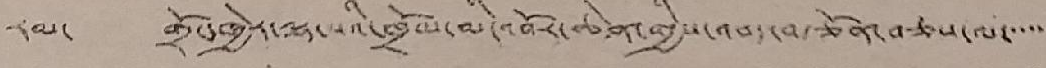རམ་ གྲོང་ཁྱེར་ལྷ་སའི་ཁྲོམ་མི་འབོར་ཆེན་གྱིས་འབད་བརྩོན་བཅས་ལ་་་་་་
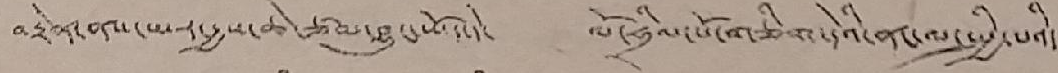བརྟེན་ནས་ཡར་རྒྱས་ཆེ་ཙམ་བྱུང་ཡོད་དེ་ ལོ་ཧྲིལ་པོ་གཅིག་དེའི་ནང་ལ་སྤྱི་པའི་
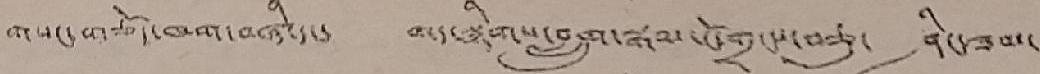གསང་བཅོད་ཁག་བཞི་དང་ གད་སྙིགས་བླུག་སྒམ་ངོ་གྲངས་བཅུ་ ཤིང་ཟམ་
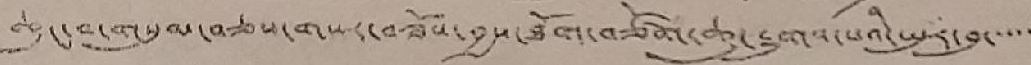ཆུང་བ་གསུམ་བཅས་གསར་བཟོས་བྱས་ཐོག་བཙོག་ཆུ་རྒྱུགས་པའི་ཡུར་བུ་་་་་
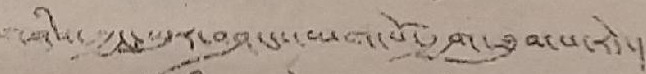གཉིས་ཀྱང་ཡུར་བཤང་ཡག་པོ་རྒྱག་ཐུབ་པ་རེད་།
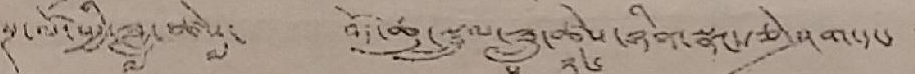སྔ་ལོ་སྤྱི་ཟླ་༧་ཚེས་༧་ བོད་ཆུ་སྦྲུལ་ཟླ་༥་ཚེས་༢༦་ཉིན་སྣང་རྩེ་ཤག་དང་
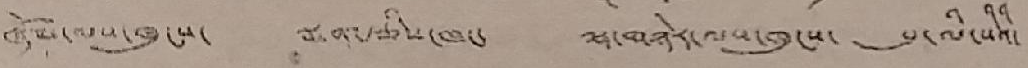ཞོམ་ལས་ཁུངས་ སྨན་རྩིས་ཁང་ ལྟ་གཉེར་ལས་ཁུངས་ པུ་ལི་སིའི་
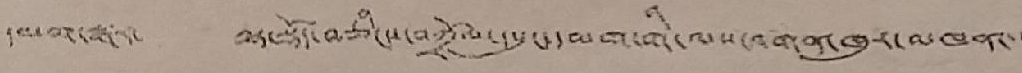དམག་སྒར་ ལྟ་སྡོད་བཅིངས་བཀྲོལ་དཔུང་དམག་གི་ལས་འགན་ཁུར་མཁན་་
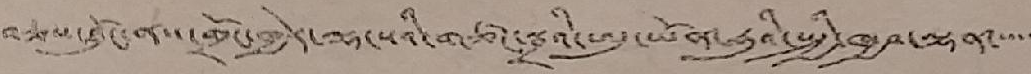བཅས་ཐོུང་ནས་གྲོང་ཁྱེར་ལྷ་སའི་གཙང་སྦྲའི་ཨུ་ཡོན་ཧུའི་སྤྱི་ཁྱབ་ལྷན་་་་་
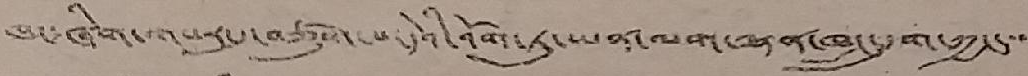ཁང་ཞིག་གསར་དུ་བཙུགས་པ་དེའི་འོག་ཏུ་ཡན་ལག་ལྷན་ཁང་དྲུག་ཀྱང་་་་
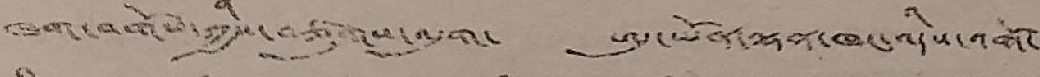ཁག་བགོས་ཀྱིས་བཙུགས་འདུག་ ཨུ་ཡོན་ལྷན་ཁང་འདིས་འགོ་
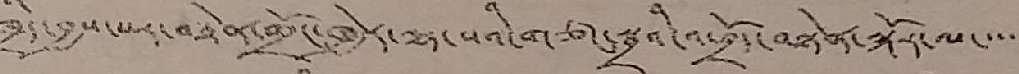ཁྲིད་བྱས་པར་བརྟེན་གྲོང་ཁྱེར་ལྷ་སའི་གཙང་སྦྲའི་འཕྲོད་བསྟེན་སྐོར་ལ་་་་་
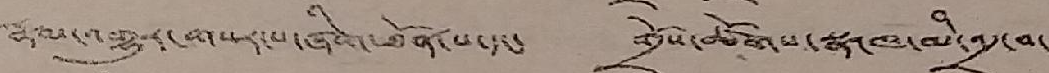རྣམ་འགྱུར་གསར་པ་ཞིག་ཐོན་པ་དང་ གྲོས་ཚོགས་སྣ་ཁ་མི་འདྲ་བ་
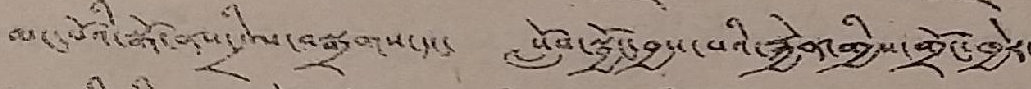མང་པོའི་སྒོ་ནས་དྲིལ་བསྒྲགས་དང་ སློབ་སྦྱོང་བྱས་པའི་རྐྱེན་གྱིས་གྲོང་ཁྱེར་
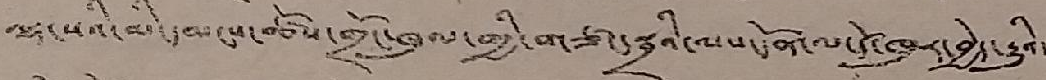ལྷ་སའི་མི་དམངས་ཚོས་གྲོང་ཁུལ་གྱི་གཙང་སྦྲའི་ལས་དོན་ལ་དོ་ཁུར་བྱེད་རྒྱུའི་
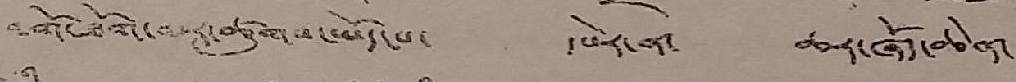འགོ་ཐོག་མར་ཚུགས་ཡོད་པ་ དཔེར་ན་ ཆར་ཞོད་ཆེན་
